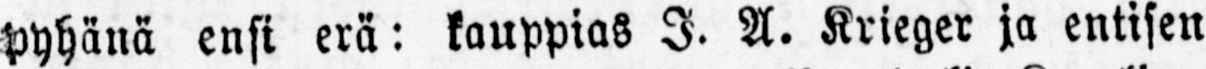pyhänä ensi erä: kauppias I. A. Krieger ja entisen
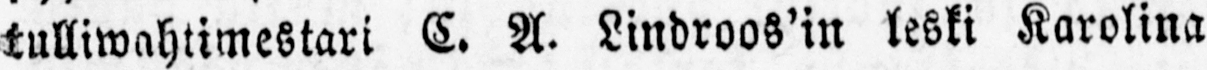tulliwahtimestari C. A. Lindroos’in leski Karolina
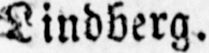Lindberg.
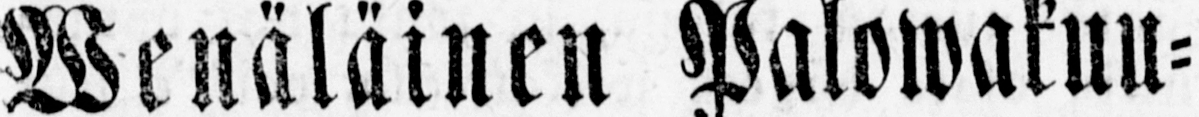Wenäläinen Palowakuu-
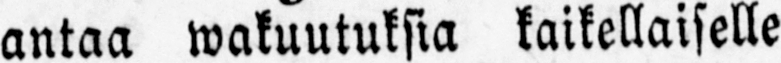tusyhtiö antaa wakuutuksia kaikellaiselle
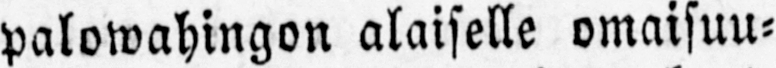palowahingon alaiselle omaisuu-
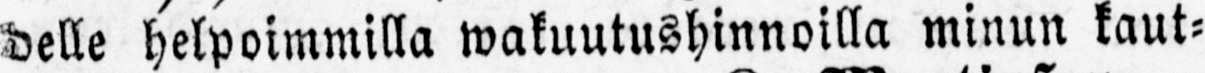delle helpoimmilla wakuutushinnoilla minun kaut-
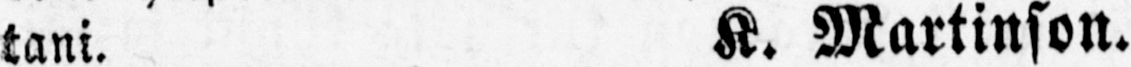tani. K. Martinson.
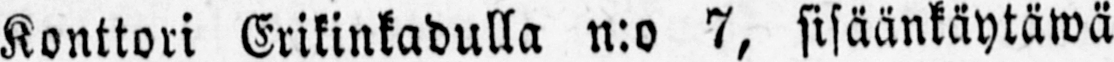Konttori Erikinkadulla n:o 7, sisäänkäytäwä
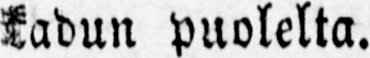kadun puolelta.
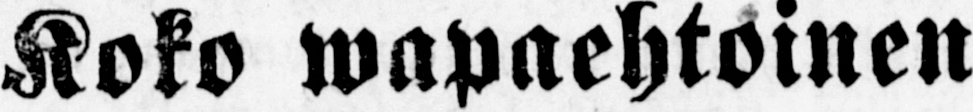Koko wapaehtoinen
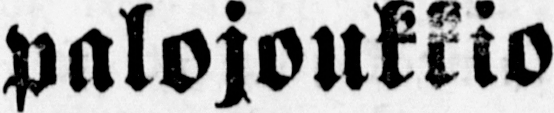palojoukkio
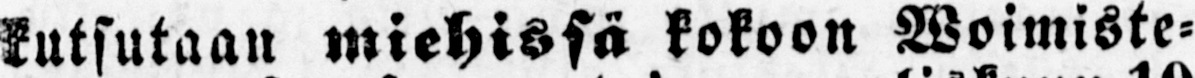Kutsutaan miehissä kokoon Woimiste-
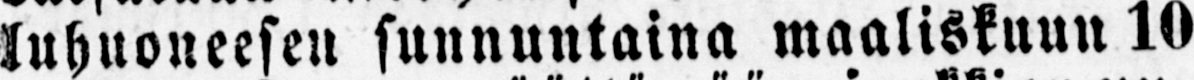luhuoneesen sunnuntaina maaliskuun 10
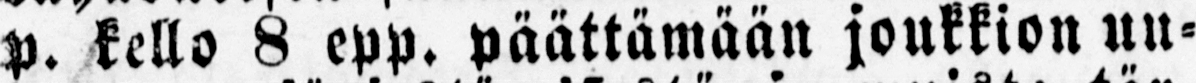p. kello 8 epp. päättämään joukkion uu-
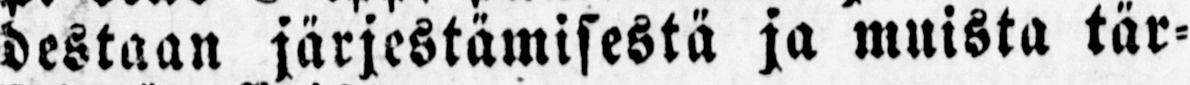destaan järjestämisestä ja muista tär-
